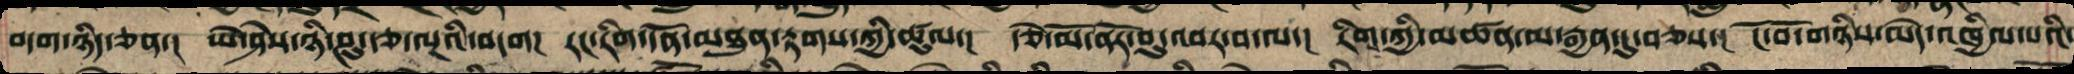བདག་ཉིད་ཅན་། ཡེ་ཤེས་ཉི་ཤུ་རྩ་ལྔའི་བདག། རང་རིག་དོན་མཐུན་རྟགས་ཀྱི་ཚུལ་། རྩེ་མོ་ནོར་བུ་འབར་བ་ལ་། རིགས་ཀྱི་མཚན་མ་རྒྱན་དུ་བཅས་། ངོ་བོ་གཉིས་མེད་འཁྱིལ་པའི་
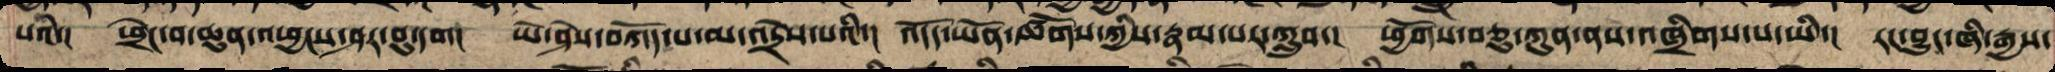པའི་། ཕྲེང་བ་ཆུན་འཕྱང་ཤར་བུ་དག། ཡེ་ཤེས་བཀོད་པ་མ་འདྲེས་པའི་། འདོད་ཡོན་ཚོགས་ཀྱིས་རྣམ་པར་ཀླུབ་། ཕྱོགས་བཅུ་ཀུན་ནས་འཁྲིགས་པ་ཡི་། རང་བྱུང་ཞི་རྒྱས་
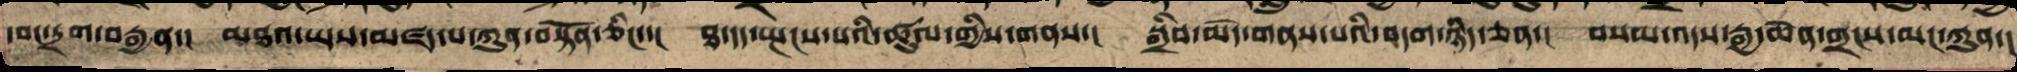དབང་དྲག་བརྒྱན་། མཐའ་ཡས་མཛད་པ་ཀུན་སྟོན་ཅིང་་། ཐ་དད་སྤངས་པའི་ཚུལ་གྱིས་གནས་། སྒྲིབ་མེད་གསལ་བའི་བདག་ཉིད་ཅན། བསམ་འདས་རྒྱ་ཆེན་གྲངས་མང་ཀུན་།
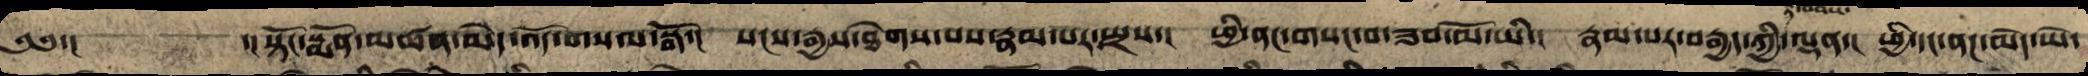༄༅་། ་།སྟོང་སྨོན་མཚན་མེད་འོད་གསལ་སྒོ་། སངས་རྒྱས་ཐེག་པས་རྣམ་པར་སྤྲས་། ཕྱི་ནང་གསང་བ་ཟབ་མོ་ཡི་། རྣམ་ཐར་བརྒྱད་ཀྱི་རྟ་བབས་ལྡན་། ཕྱི་དང་ནང་མེད་ཡེ་
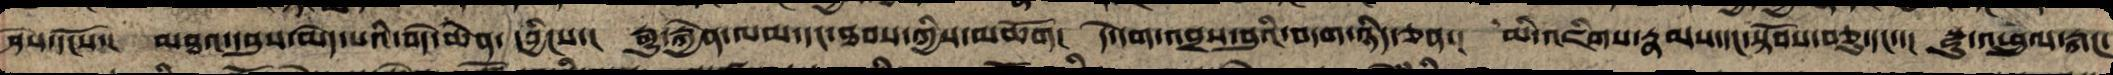ཤེས་དངོས་། མཐའ་དབུས་མེད་པའི་བདེ་ཆེན་དབྱིངས་། རྒྱུ་རྐྱེན་ལམ་དང་ཐབས་ཀྱི་མཆོག། དེ་དག་འབྲས་བུའི་བདག་ཉིད་ཅན་། མི་འཇིགས་རྣམས་དང་སྟོབས་བཅུ་དང་་། སྫུ་འཕྲུལ་རྐང་
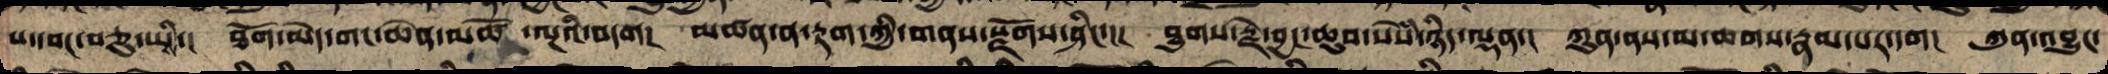པ་དབང་བཅུ་ཡིས་། ཐོག་མེད་གངས་ཆེན་མཚོ་ལྔའི་བདག། མཚན་མ་རྟག་ཀྱི་གནས་སྫོགས་ཤིང་་། ཐུགས་རྗེ་བྱང་ཆུབ་སེཾས་ཉིད་ལྡན་། ཀུན་ནས་མ་ཆགས་རྣམ་པར་དག། ཀུན་འབྱུང་
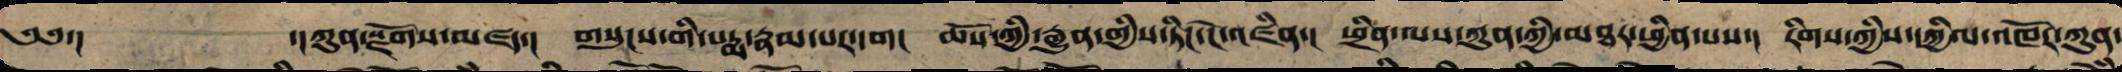༄༅་།  ་།ཀུན་སྫོགས་མཛད་། གསུང་གི་པདྨ་རྣམ་པར་དག། ཆོས་ཀྱི་རྒྱུན་གྱི་ཏིང་ངེ་འཛིན་། ཕྲིན་ལས་ཀུན་གྱི་མཐར་ཕྱིན་པས་། རིགས་ཀྱི་དཀྱིལ་འཁོར་ཀུན་
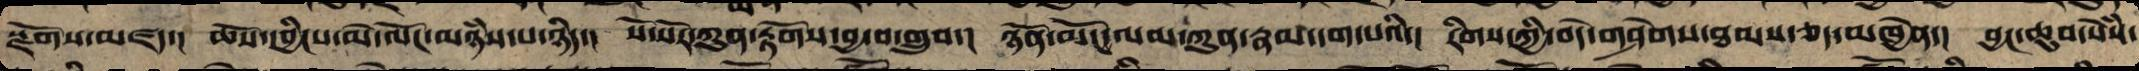སྫོགས་མཛད་། ཆོས་དབྱིངས་མེ་ལོང་མཉཾས་པ་ཉིད་། སོ་སོར་ཀུན་རྟོག་བྱ་བ་གྲུབ་། ཉོན་མོངས་ལམ་ཀུན་རྣམ་དག་པའི་། རིགས་ཀྱི་བདེ་གཤེགས་ཐམས་ཅད་མཁྱེན་། བྱང་ཆུབ་སེཾས་
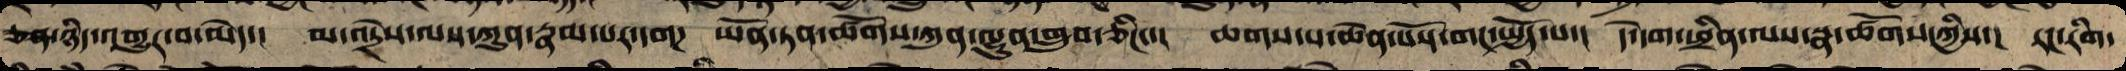ཉིད་འགྱུར་བ་མེད་། མ་འདྲེས་ལས་ཀུན་རྣམ་པར་དག། ཡོན་ཏན་ཚོགས་ཀུན་ལྷུན་གྲུབ་ཅིང་་། ཆགས་པ་ཆེན་པོས་གང་སྤྱོད་པ་། དེ་དག་ཕྲིན་ལས་སྣ་ཚོགས་ཀྱིས་། རང་རིག་
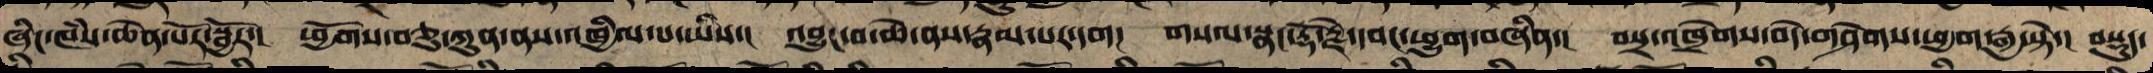ཞིང་ཁཾས་ཆེན་པོར་སྦྱོར་། ཕྱོགས་བཅུ་ཀུན་ནས་འཁྱིལ་པ་ཡིས་། འབྱུང་བ་ཆེ་ནི་རྣམ་པར་དག། གསལ་སྣང་རྡོ་རྗེ་དབང་ཕྱུག་བཞིན་། བསྲ་འཁྲེགས་བདེ་གཤེགས་ཕྱག་རྒྱ་སྟེ་། བསྡུད་
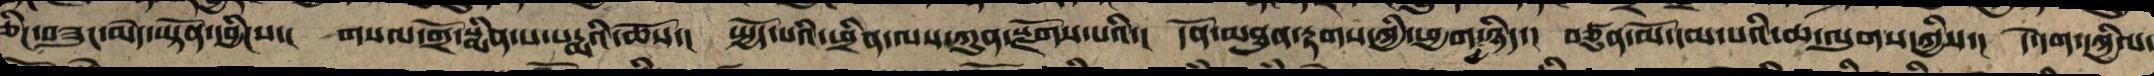ཅིང་གཟུང་མེད་ཡྟོན་དབྱིངས་། གསལ་དྲོ་སྨིན་པ་པདྨའི་ཆོས་། སྤྱོད་པའི་ཕྲིན་ལས་ཀུན་སྫོགས་པའི་། དོན་མཐུན་རྟགས་ཀྱི་ཕྱག་རྒྱ་ཉིད་། བཙུན་མོ་དམ་པའི་ཆ་ལུགས་ཀྱིས་། དེ་དག་དཀྱིལ་
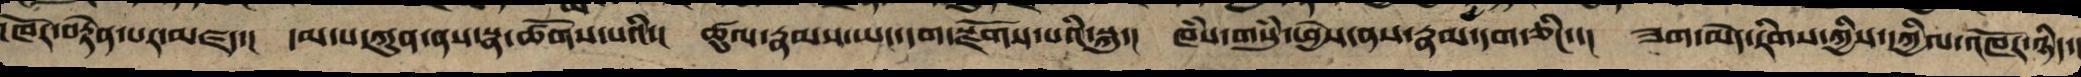འཁོར་བརྟེན་པར་མཛད་། དམ་པ་ཀུན་ནས་སྣ་ཚོགས་པའི་། ཚུལ་རྣམས་ཡང་དག་སྫོགས་པའི་སྐུ་། ཁཾས་གསུཾ་སྤྱེས་ནས་རྣམ་དག་ཅིང་་། ཟག་མེད་རིགས་ཀྱི་དཀྱིལ་འཁོར་ཉིད་།
